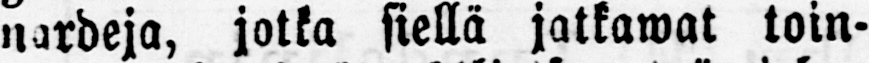nardeja, jotka siellä jatkawat toin-
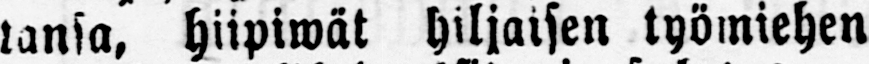tansa, hiipiwät hiljaisen työmiehen
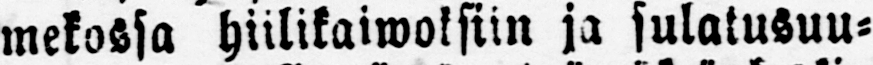mekossa hiilikaiwoksiin ja sulatusuu-
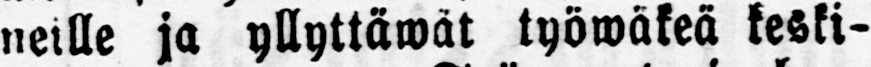neille ja yllyttäwat työwäkeä keski-
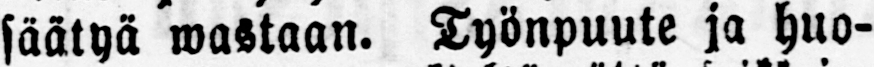säätyä wartaan. Työnpuute ja huo-
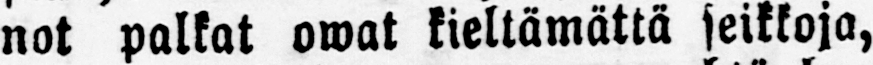not palkat owat kieltämättä seikkoja,
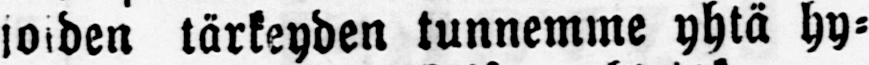joiden tärkeyden tunnemme yhtä hy-
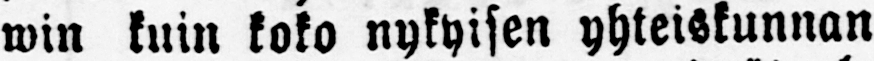win kuin koko nykyisen yhteiskunnan
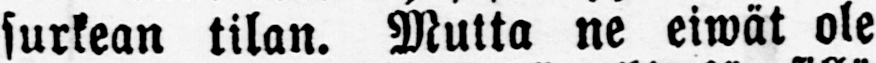surkean tilan. Mutta ne eiwät ole
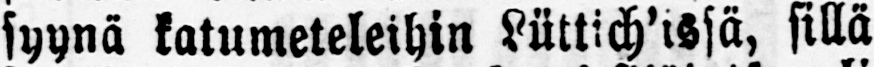syynä katumeteleihin Lüttich'issä, sillä
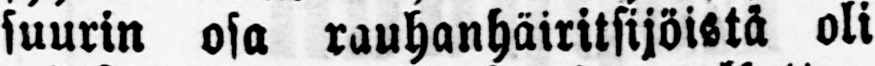suurin osa rauhanhäiritsijöistä oli
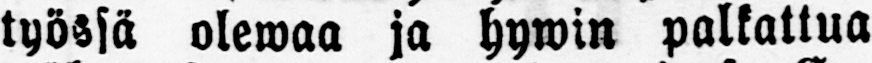työssä olewaa ja hywin palkattua
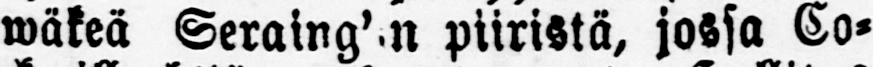wäkeä Seraing'n piiristä, jossa Co-
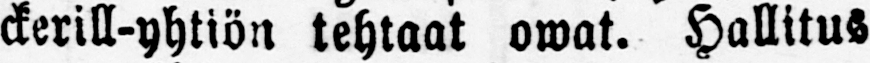ckerill-yhtiön tehtaat owat. Hallitus
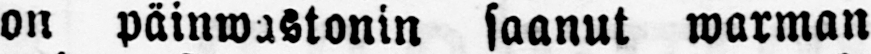on päinwastonin saanut warman
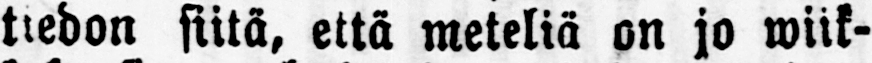tiedon siitä, että meteliä on jo wiik-
